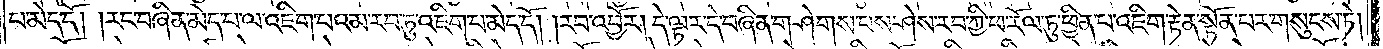པ་མེད་དོ། །རང་བཞིན་མེད་པ་ལ་འཇིག་པ་འམ་རབ་ཏུ་འཇིག་པ་མེད་དོ། །རབ་འབྱོར། དེ་ལྟར་དེ་བཞིན་གཤེགས་པས་ཤེས་རབ་ཀྱི་ཕ་རོལ་ཏུ་ཕྱིན་པ་འཇིག་རྟེན་སྟོན་པར་གསུངས་ཏེ།
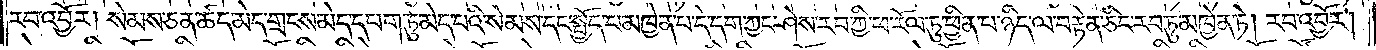རབ་འབྱོར། སེམས་ཅན་ཚད་མེད་གྲངས་མེད་དཔག་ཏུ་མེད་པའི་སེམས་དང་སྤྱོད་པ་མཁྱེན་པ་དེ་དག་ཀྱང་ཤེས་རབ་ཀྱི་ཕ་རོལ་ཏུ་ཕྱིན་པ་ཉིད་ལ་བརྟེན་ཅིང་རབ་ཏུ་མཁྱེན་ཏེ། རབ་འབྱོར།
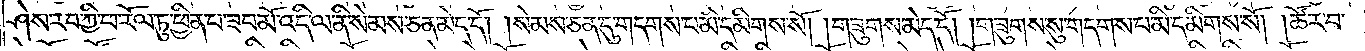ཤེས་རབ་ཀྱི་ཕ་རོལ་ཏུ་ཕྱིན་པ་ཟབ་མོ་འདི་ལ་ནི་སེམས་ཅན་མེད་དོ། །སེམས་ཅན་དུ་གདགས་པ་མི་དམིགས་སོ། །གཟུགས་མེད་དོ། །གཟུགས་སུ་གདགས་པ་མི་དམིགས་སོ། །ཚོར་བ་
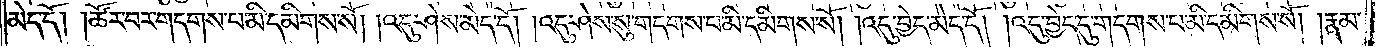མེད་དོ། །ཚོར་བར་གདགས་པ་མི་དམིགས་སོ། །འདུ་ཤེས་མེད་དོ། །འདུ་ཤེས་སུ་གདགས་པ་མི་དམིགས་སོ། །འདུ་བྱེད་མེད་དོ། །འདུ་བྱེད་དུ་གདགས་པ་མི་དམིགས་སོ། །རྣམ་
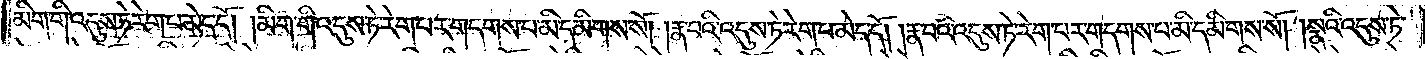མིག་གི་འདུས་ཏེ་རེག་པ་མེད་དོ། །མིག་གི་འདུས་ཏེ་རེག་པར་གདགས་པ་མི་དམིགས་སོ། །རྣ་བའི་འདུས་ཏེ་རེག་པ་མེད་དོ། །རྣ་བའི་འདུས་ཏེ་རེག་པར་གདགས་པ་མི་དམིགས་སོ། །སྣའི་འདུས་ཏེ་
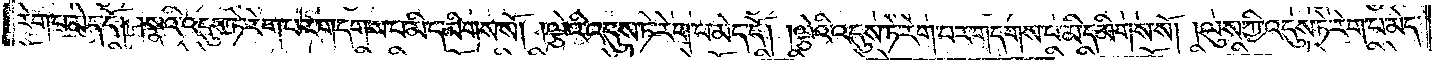རེག་པ་མེད་དོ། །སྣའི་འདུས་ཏེ་རེག་པར་གདགས་པ་མི་དམིགས་སོ། །ལྕེའི་འདུས་ཏེ་རེག་པ་མེད་དོ། །ལྕེའི་འདུས་ཏེ་རེག་པར་གདགས་པ་མི་དམིགས་སོ། །ལུས་ཀྱི་འདུས་ཏེ་རེག་པ་མེད་
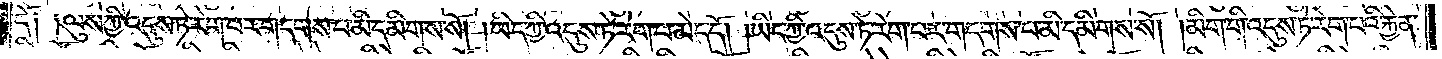དོ༑ ༑ལུས་ཀྱི་འདུས་ཏེ་རེག་པར་གདགས་པ་མི་དམིགས་སོ། །ཡིད་ཀྱི་འདུས་ཏེ་རེག་པ་མེད་དོ། །ཡིད་ཀྱི་འདུས་ཏེ་རེག་པར་གདགས་པ་མི་དམིགས་སོ། །མིག་གི་འདུས་ཏེ་རེག་པའི་རྐྱེན་
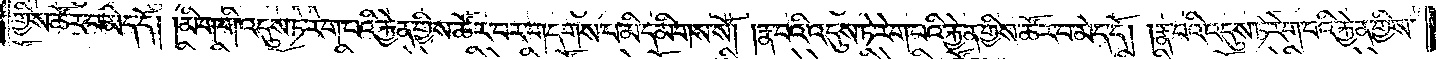གྱིས་ཚོར་བ་མེད་དོ། །མིག་གི་འདུས་ཏེ་རེག་པའི་རྐྱེན་གྱིས་ཚོར་བར་གདགས་པ་མི་དམིགས་སོ། །རྣ་བའི་འདུས་ཏེ་རེག་པའི་རྐྱེན་གྱིས་ཚོར་བ་མེད་དོ། །རྣ་བའི་འདུས་ཏེ་རེག་པའི་རྐྱེན་གྱིས་
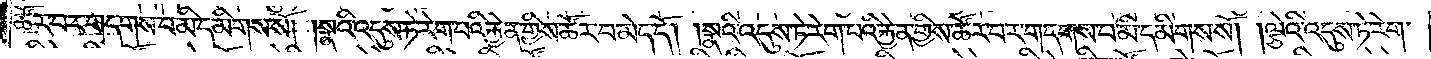ཚོར་བར་གདགས་པ་མི་དམིགས་སོ། །སྣའི་འདུས་ཏེ་རེག་པའི་རྐྱེན་གྱིས་ཚོར་བ་མེད་དོ། །སྣའི་འདུས་ཏེ་རེག་པའི་རྐྱེན་གྱིས་ཚོར་བར་གདགས་པ་མི་དམིགས་སོ། །ལྕེའི་འདུས་ཏེ་རེག་
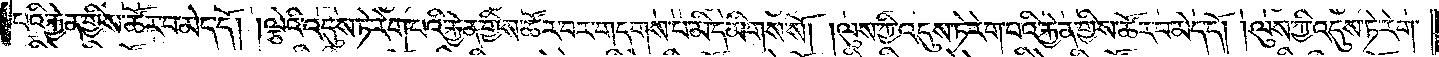པའི་རྐྱེན་གྱིས་ཚོར་བ་མེད་དོ། །ལྕེའི་འདུས་ཏེ་རེག་པའི་རྐྱེན་གྱིས་ཚོར་བར་གདགས་པ་མི་དམིགས་སོ། །ལུས་ཀྱི་འདུས་ཏེ་རེག་པའི་རྐྱེན་གྱིས་ཚོར་བ་མེད་དོ། །ལུས་ཀྱི་འདུས་ཏེ་རེག་
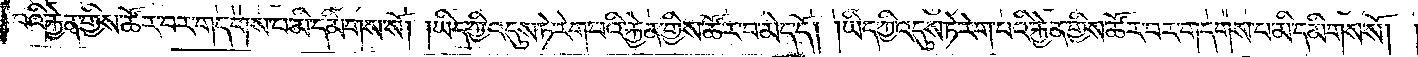པའི་རྐྱེན་གྱིས་ཚོར་བར་གདགས་པ་མི་དམིགས་སོ། །ཡིད་ཀྱི་འདུས་ཏེ་རེག་པའི་རྐྱེན་གྱིས་ཚོར་བ་མེད་དོ། །ཡིད་ཀྱི་འདུས་ཏེ་རེག་པའི་རྐྱེན་གྱིས་ཚོར་བར་གདགས་པ་མི་དམིགས་སོ། །
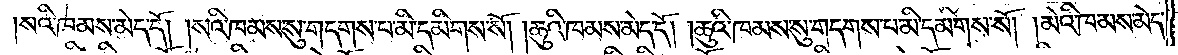སའི་ཁམས་མེད་དོ། །སའི་ཁམས་སུ་གདགས་པ་མི་དམིགས་སོ། །ཆུའི་ཁམས་མེད་དོ། །ཆུའི་ཁམས་སུ་གདགས་པ་མི་དམིགས་སོ། །མེའི་ཁམས་མེད་
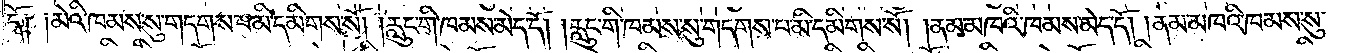དོ༑ ༑མེའི་ཁམས་སུ་གདགས་པ་མི་དམིགས་སོ། །རླུང་གི་ཁམས་མེད་དོ། །རླུང་གི་ཁམས་སུ་གདགས་པ་མི་དམིགས་སོ། །ནམ་མཁའི་ཁམས་མེད་དོ། །ནམ་མཁའི་ཁམས་སུ་
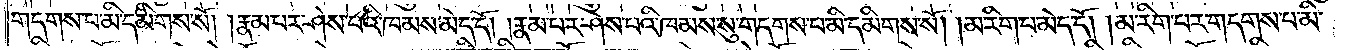གདགས་པ་མི་དམིགས་སོ། །རྣམ་པར་ཤེས་པའི་ཁམས་མེད་དོ། །རྣམ་པར་ཤེས་པའི་ཁམས་སུ་གདགས་པ་མི་དམིགས་སོ། །མ་རིག་པ་མེད་དོ། །མ་རིག་པར་གདགས་པ་མི་
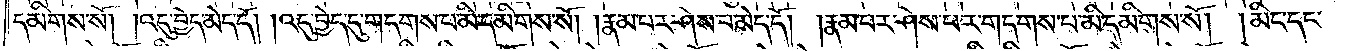དམིགས་སོ། །འདུ་བྱེད་མེད་དོ། །འདུ་བྱེད་དུ་གདགས་པ་མི་དམིགས་སོ། །རྣམ་པར་ཤེས་པ་མེད་དོ། །རྣམ་པར་ཤེས་པར་གདགས་པ་མི་དམིགས་སོ། །མིང་དང་
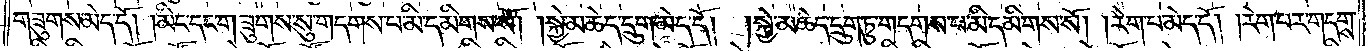གཟུགས་མེད་དོ། །མིང་དང་གཟུགས་སུ་གདགས་པ་མི་དམིགས་སོ། །སྐྱེ་མཆེད་དྲུག་མེད་དོ། །སྐྱེ་མཆེད་དྲུག་ཏུ་གདགས་པ་མི་དམིགས་སོ། །རེག་པ་མེད་དོ། །རེག་པར་གདགས་
